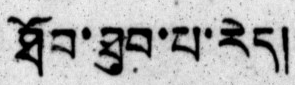ཐོབ་ཐུབ་པ་རེད།
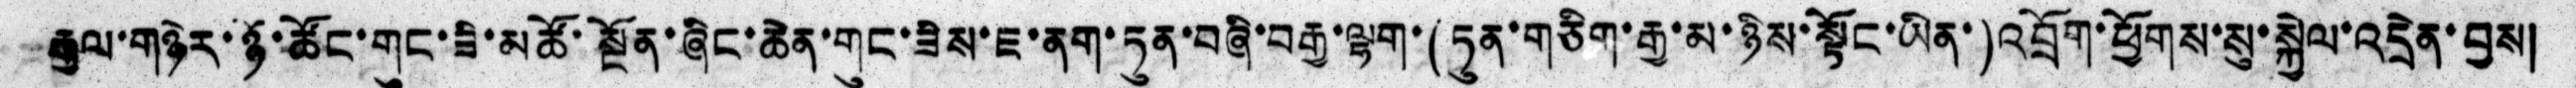རྒྱལ་གཉེར་ཉོ་ཚོང་གུང་ཟི་མཚོ་སྔོན་ཞིང་ཆེན་གུང་ཟིས་ཇ་ནག་ཏུན་བཞི་བརྒྱ་ལྷག་(ཏུན་གཅིག་རྒྱ་མ་ཉིས་སྟོང་ཡིན་)འབྲོག་ཕྱོགས་སུ་སྐྱེལ་འདྲེན་བྱས།
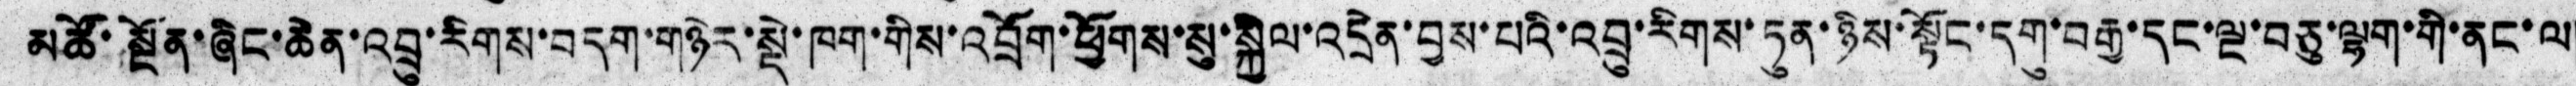མཚོ་སྔོན་ཞིང་ཆེན་འབྲུ་རིགས་བདག་གཉེར་སྡེ་ཁག་གིས་འབྲོག་ཕྱོགས་སུ་སྐྱིལ་འདྲེན་བྱས་པའི་འབྲུ་རིགས་ཏུན་ཉིས་སྟོང་དགུ་བརྒྱ་དང་ལྔ་བཅུ་ལྷག་གི་ནང་ལ།
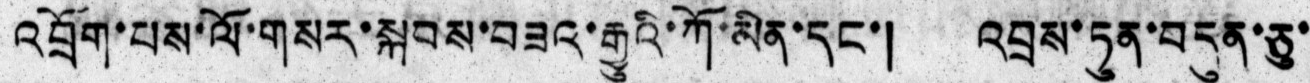འབྲོག་པས་ལོ་གསར་སྐབས་བཟའ་རྒྱུའི་ཀོ་མིན་དང་། འབྲས་ཏུན་བདུན་ཅུ་
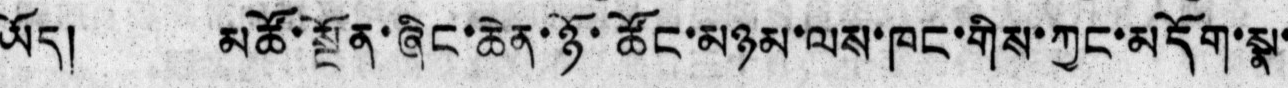ཡོད། མཚོ་སྔོན་ཞིང་ཆེན་ཉོ་ཚོང་མཉམ་ལས་ཁང་གིས་ཀྱང་མདོག་སྣ་
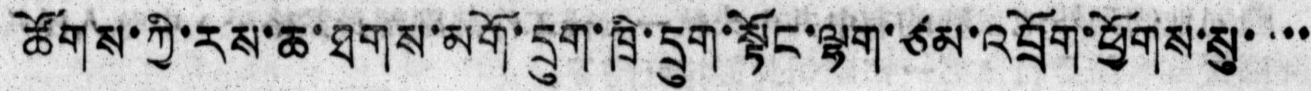ཚོགས་ཀྱི་རས་ཆ་ཐུགས་མགོ་དྲུག་ཁྲི་དྲུག་སྟོང་ལྷག་ཙམ་འབྲོག་ཕྱོགས་སུ་་་་
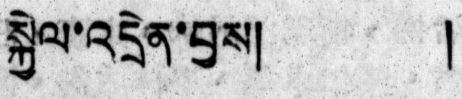སྐྱེལ་འདྲེན་བྱས། །
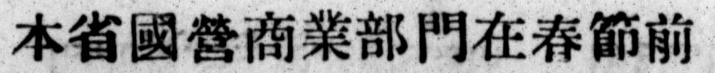本省國營商業部門在春節前
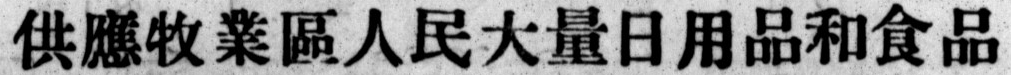供應牧業區人民大量日用品和食品
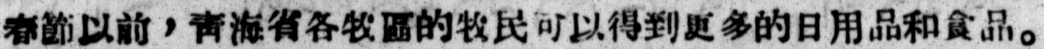春節以前，靑海省各牧區的牧民可以得到更多的日用品和食品。
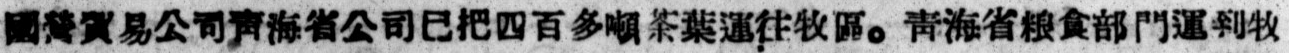國營貿易公司靑海省公司已把四百多噸茶葉運往牧區。靑海省粮食部門運到牧
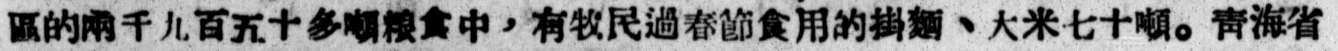區的兩千九百五十多噸粮食中，有牧民過春節食用的掛麵、大米七十噸。靑海省
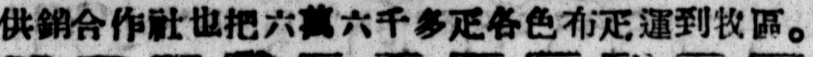供銷合作社也把六萬六千多疋各色布疋運到牧區。
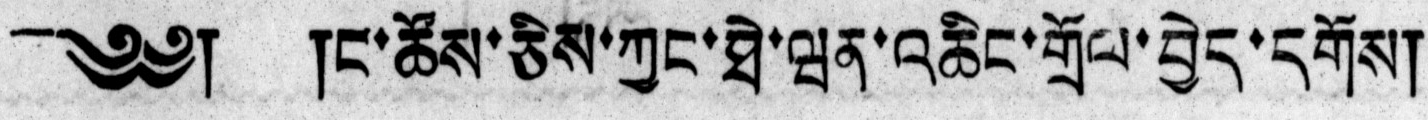༄༅། །ང་ཚོས་ཅིས་ཀྱང་ཐེ་ཝན་འཆིང་གྲོལ་བྱེད་དགོས།
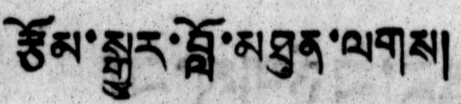རྩོམ་སྒྱུར་བློ་མཐུན་ལགས།
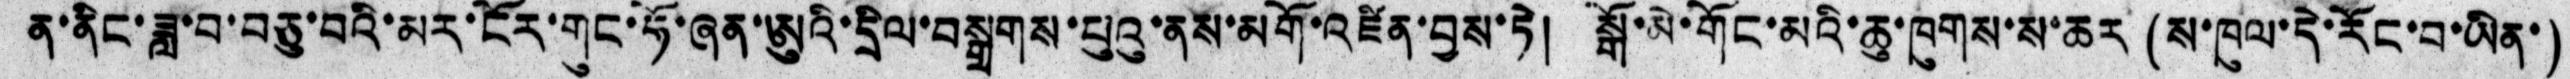ན་ནིང་ཟླ་བ་བཅུ་བའི་མར་ངོར་གུང་ཧོ་ཞན་ཨུའི་དྲིལ་བསྒྲགས་པུའུ་ནས་མགོ་འཛིན་བྱས་ཏེ། སྒོ་མེ་གོང་མའི་ཆུ་ཁུགས་ས་ཆར (ས་ཁུལ་དེ་རོང་བ་ཡིན་)
